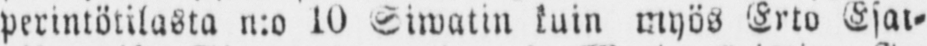perintötilasta n:o 10 Siwatin kuin myös Erto Esat-
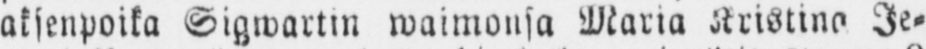aksenpoika Sigwartin waimonsa Maria Kristina Je-
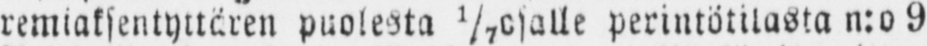remiaksentyttären puolesta 1/7 perintötilasta n:o 9
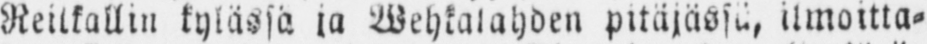Reitkallin kylässä ja Wehkalahden pitäjässä, ilmoitta-
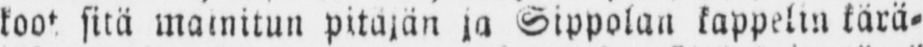koot sitä mainitun pitajän ja Sippolan kappelin kärä-
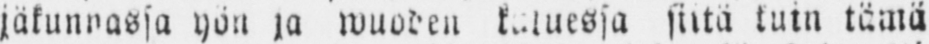jäkunnassa yön ja wuoden kuluessa siitä kuin tämä
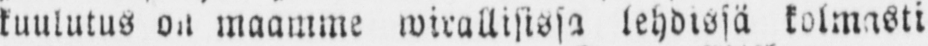kuulutus on maamme wirallisissa lehdissä kolmasti
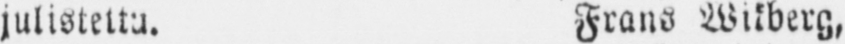julistettu. Frans Wikberg,
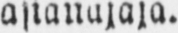asiauajaja.
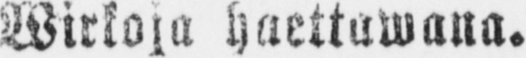Wirkoja haettawana.
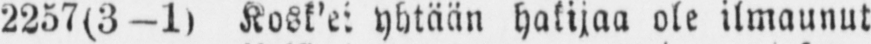2257(3-1) Kosk’ei yhtään hakijaa ole ilmaunut
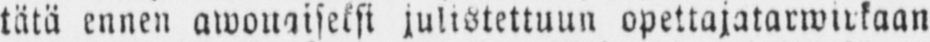tätä ennen awonaiseksi julistettuun opettajatarwirkaan
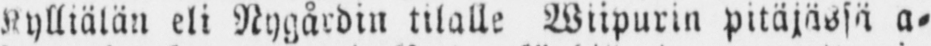Kylliälän eli Nygårdin tilalle Wiipurin pitäjässä a-
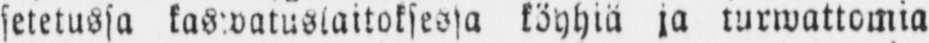setetussa kaswatuslaitoksessa köyhiä ja turwattomia
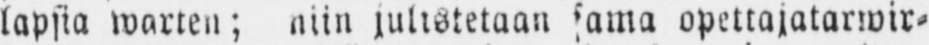lapsia warten; niin julistetaan sama opettajatarwir-
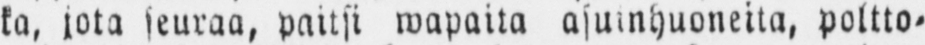ka, jota seuraa, paitsi wapaita asuinhuoneita, poltto-
